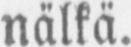nälkä.
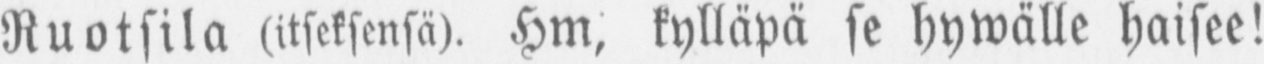Ruotsila (itseksensä). Hm, kylläpä se hywälle haisee!
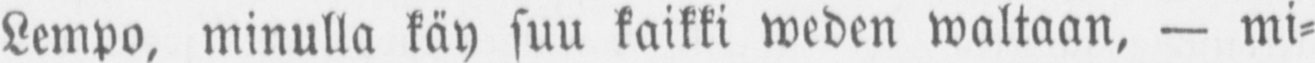Lempo, minulla käy suu kaikki weden waltaan, — mi-
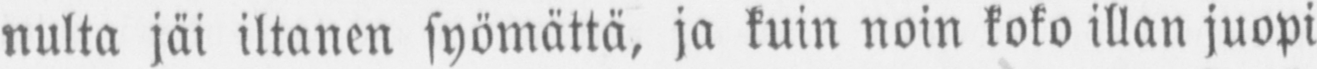nulta jäi iltanen syömättä, ja kuin noin koko illan juopi
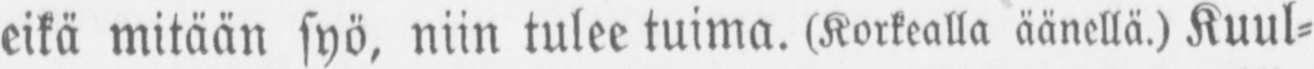eikä mitään syö, niin tulee tuima. (Korkealla äänellä.) Kuul-
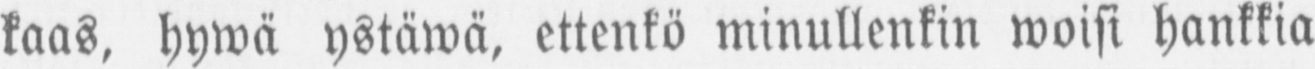kaas, hywä ystäwä, ettenkö minullenkin woisi hankkia
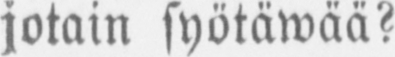jotain syötäwää?
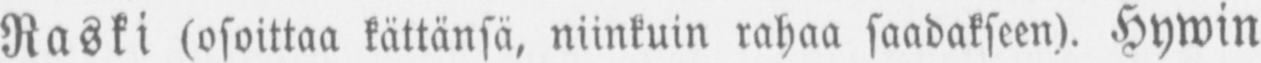Raski (osoittaa kättänsä, niinkuin rahaa saadakseen). Hywin
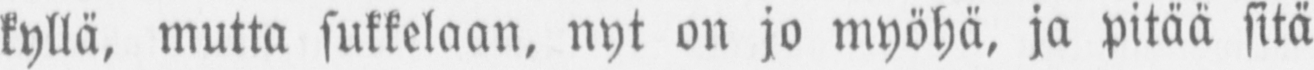kyllä, mutta sukkelaan, nyt on jo myöhä, ja pitää sitä
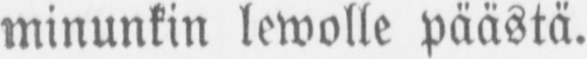minunkin lewolle päästä.
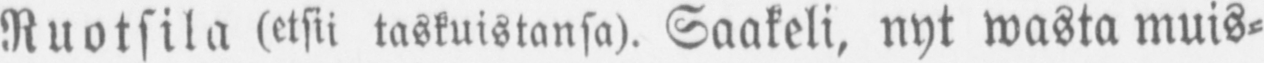Ruotsila (etsii taskuistansa). Saakeli, nyt wasta muis-
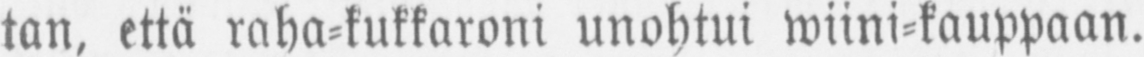tan, että raha-kukkaroni unohtui wiini-kauppaan.
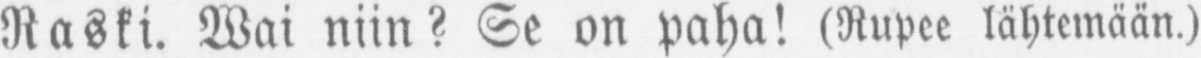Raski. Wai niin? Se on paha! (Rupee lähtemään.)
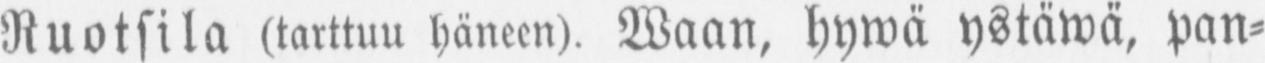Ruotsila (tarttuu häneen). Waan, hywä ystäwä, pan-
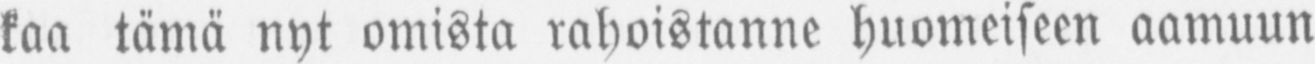kaa tämä nyt omista rahoistanne huomeiseen aamuun
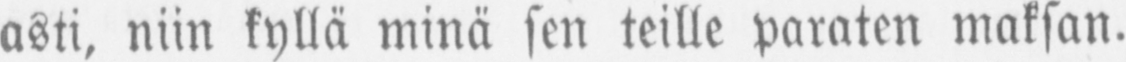asti, niin kyllä minä sen teille paraten maksan.
